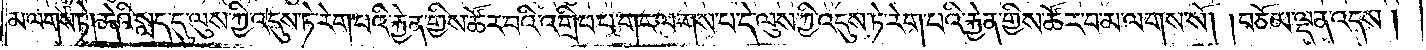མ་ལགས་ཏེ། དེའི་སླད་དུ་ལུས་ཀྱི་འདུས་ཏེ་རེག་པའི་རྐྱེན་གྱིས་ཚོར་བའི་འགྲིབ་པ་གང་ལགས་པ་དེ་ལུས་ཀྱི་འདུས་ཏེ་རེག་པའི་རྐྱེན་གྱིས་ཚོར་བ་མ་ལགས་སོ། །བཅོམ་ལྡན་འདས།
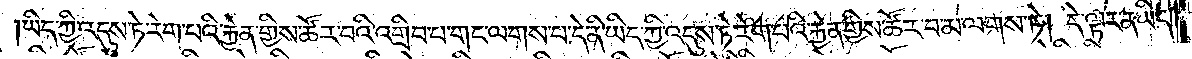ཡིད་ཀྱི་འདུས་ཏེ་རེག་པའི་རྐྱེན་གྱིས་ཚོར་བའི་འགྲིབ་པ་གང་ལགས་པ་དེ་ནི་ཡིད་ཀྱི་འདུས་ཏེ་རེག་པའི་རྐྱེན་གྱིས་ཚོར་བ་མ་ལགས་ཏེ། དེ་ལྟར་ན་ཡིད་
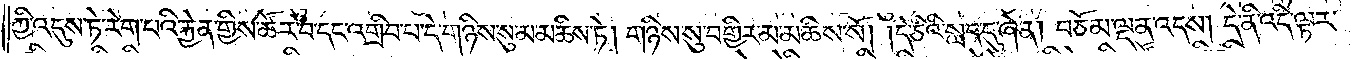ཀྱི་འདུས་ཏེ་རེག་པའི་རྐྱེན་གྱིས་ཚོར་བ་དང་འགྲིབ་པ་དེ་གཉིས་སུ་མ་མཆིས་ཏེ། གཉིས་སུ་བགྱིར་མ་མཆིས་སོ། །དེ་ཅིའི་སླད་དུ་ཞེ་ན། བཅོམ་ལྡན་འདས། དེ་ནི་འདི་ལྟར་
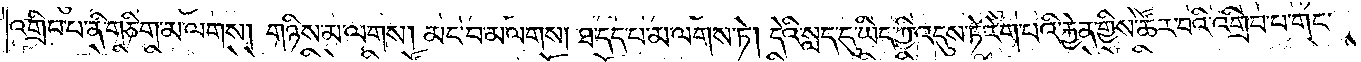འགྲིབ་པ་ནི་གཅིག་མ་ལགས། གཉིས་མ་ལགས། མང་བ་མ་ལགས། ཐ་དད་པ་མ་ལགས་ཏེ། དེའི་སླད་དུ་ཡིད་ཀྱི་འདུས་ཏེ་རེག་པའི་རྐྱེན་གྱིས་ཚོར་བའི་འགྲིབ་པ་གང་
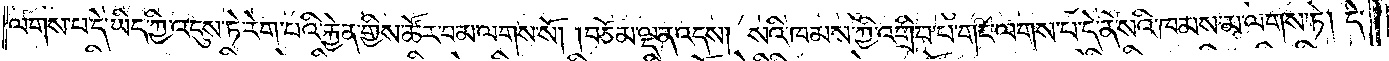ལགས་པ་དེ་ཡིད་ཀྱི་འདུས་ཏེ་རེག་པའི་རྐྱེན་གྱིས་ཚོར་བ་མ་ལགས་སོ། །བཅོམ་ལྡན་འདས། སའི་ཁམས་ཀྱི་འགྲིབ་པ་གང་ལགས་པ་དེ་ནི་སའི་ཁམས་མ་ལགས་ཏེ། དེ་
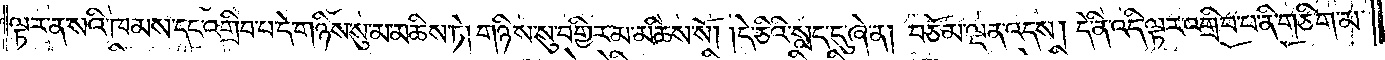ལྟར་ན་སའི་ཁམས་དང་འགྲིབ་པ་དེ་གཉིས་སུ་མ་མཆིས་ཏེ། གཉིས་སུ་བགྱིར་མ་མཆིས་སོ། །དེ་ཅིའི་སླད་དུ་ཞེ་ན། བཅོམ་ལྡན་འདས། དེ་ནི་འདི་ལྟར་འགྲིབ་པ་ནི་གཅིག་མ་
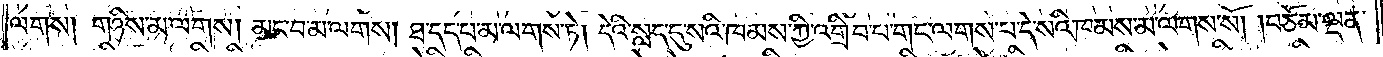ལགས། གཉིས་མ་ལགས། མང་བ་མ་ལགས། ཐ་དད་པ་མ་ལགས་ཏེ། དེའི་སླད་དུ་སའི་ཁམས་ཀྱི་འགྲིབ་པ་གང་ལགས་པ་དེ་སའི་ཁམས་མ་ལགས་སོ། །བཅོམ་ལྡན་
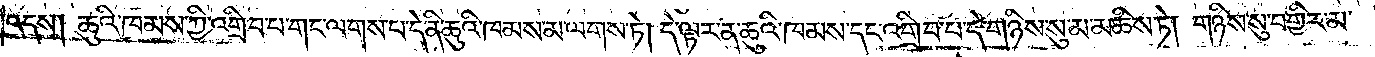འདས། ཆུའི་ཁམས་ཀྱི་འགྲིབ་པ་གང་ལགས་པ་དེ་ནི་ཆུའི་ཁམས་མ་ལགས་ཏེ། དེ་ལྟར་ན་ཆུའི་ཁམས་དང་འགྲིབ་པ་དེ་གཉིས་སུ་མ་མཆིས་ཏེ་གཉིས་སུ་བགྱིར་མ་
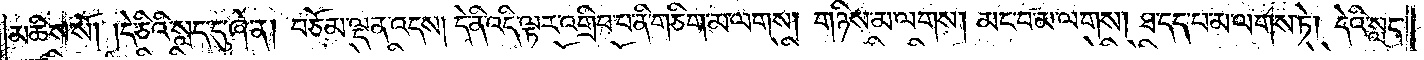མཆིས་སོ། །དེ་ཅིའི་སླད་དུ་ཞེ་ན། བཅོམ་ལྡན་འདས། དེ་ནི་འདི་ལྟར་འགྲིབ་པ་ནི་གཅིག་མ་ལགས། གཉིས་མ་ལགས། མང་བ་མ་ལགས། ཐ་དད་པ་མ་ལགས་ཏེ། དེའི་སླད་
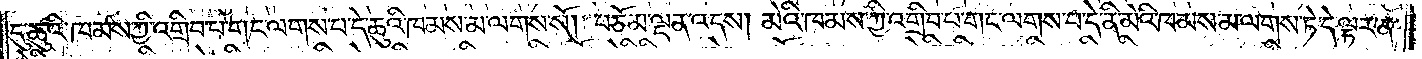དུ་ཆུའི་ཁམས་ཀྱི་འགྲིབ་པ་གང་ལགས་པ་དེ་ཆུའི་ཁམས་མ་ལགས་སོ། བཅོམ་ལྡན་འདས། མེའི་ཁམས་ཀྱི་འགྲིབ་པ་གང་ལགས་པ་དེ་ནི་མེའི་ཁམས་མ་ལགས་ཏེ་དེ་ལྟར་ན་
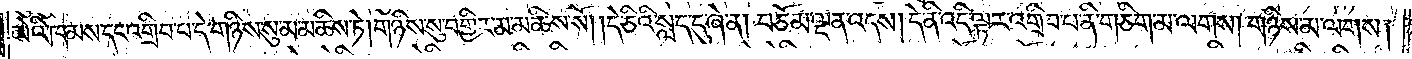མེའི་ཁམས་དང་འགྲིབ་པ་དེ་གཉིས་སུ་མ་མཆིས་ཏེ་གཉིས་སུ་བགྱིར་མ་མཆིས་སོ། །དེ་ཅིའི་སླད་དུ་ཞེ་ན། བཅོམ་ལྡན་འདས། དེ་ནི་འདི་ལྟར་འགྲིབ་པ་ནི་གཅིག་མ་ལགས། གཉིས་མ་ལགས།
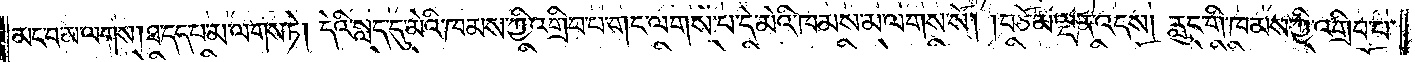མང་བ་མ་ལགས། ཐ་དད་པ་མ་ལགས་ཏེ། དེའི་སླད་དུ་མེའི་ཁམས་ཀྱི་འགྲིབ་པ་གང་ལགས་པ་དེ་མེའི་ཁམས་མ་ལགས་སོ། །བཅོམ་ལྡན་འདས། རླུང་གི་ཁམས་ཀྱི་འགྲིབ་པ་
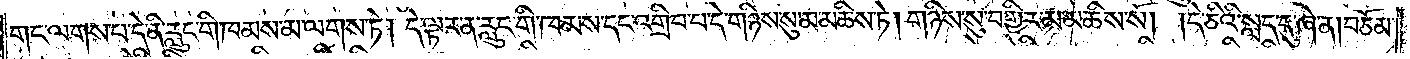གང་ལགས་པ་དེ་ནི་རླུང་གི་ཁམས་མ་ལགས་ཏེ། དེ་ལྟར་ན་རླུང་གི་ཁམས་དང་འགྲིབ་པ་དེ་གཉིས་སུ་མ་མཆིས་ཏེ། གཉིས་སུ་བགྱིར་མ་མཆིས་སོ། །དེ་ཅིའི་སླད་དུ་ཞེ་ན། བཅོམ་
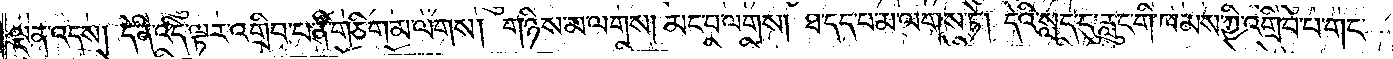ལྡན་འདས། དེ་ནི་འདི་ལྟར་འགྲིབ་པ་ནི་གཅིག་མ་ལགས། གཉིས་མ་ལགས། མང་བ་མ་ལགས། ཐ་དད་པ་མ་ལགས་ཏེ། དེའི་སླད་དུ་རླུང་གི་ཁམས་ཀྱི་འགྲིབ་པ་གང་
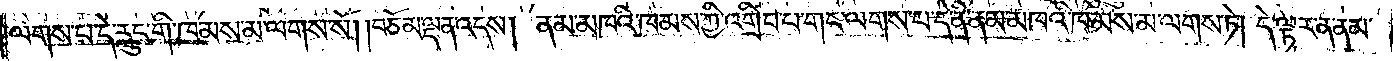ལགས་པ་དེ་རླུང་གི་ཁམས་མ་ལགས་སོ། །བཅོམ་ལྡན་འདས། ནམ་མཁའི་ཁམས་ཀྱི་འགྲིབ་པ་གང་ལགས་པ་དེ་ནི་ནམ་མཁའི་ཁམས་མ་ལགས་ཏེ། དེ་ལྟར་ན་ནམ་
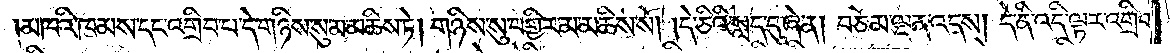མཁའི་ཁམས་དང་འགྲིབ་པ་དེ་གཉིས་སུ་མ་མཆིས་ཏེ། གཉིས་སུ་བགྱིར་མ་མཆིས་སོ། །དེ་ཅིའི་སླད་དུ་ཞེ་ན། བཅོམ་ལྡན་འདས། དེ་ནི་འདི་ལྟར་འགྲིབ་
